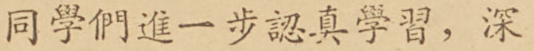同學們進一步認真學習，深
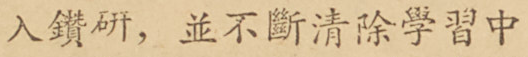入鑽研，並不斷清除學習中
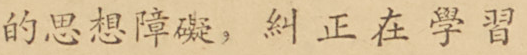的思想障礙，糾正在學習
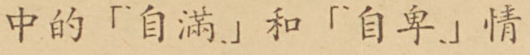中的「自滿」和「自卑」情
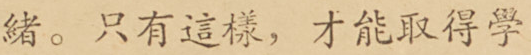緒。只有這樣，才能取得學
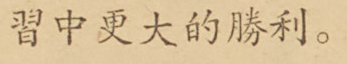習中更大的勝利。
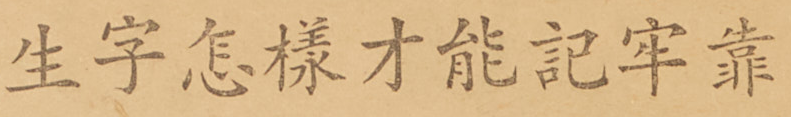生字怎樣才能記牢靠
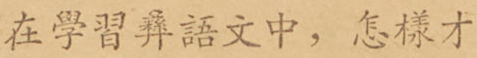在學習彝語文中，怎樣才
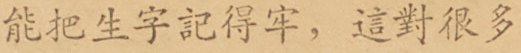能把生字記得牢，這對很多
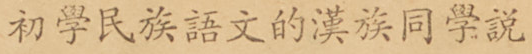初學民族語文的漢族同學說
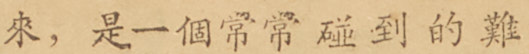來，是一個常常碰到的難
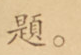題。
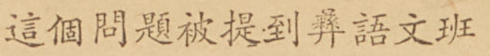這個問題被提到彝語文班
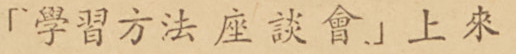「學習方法座談會」上來
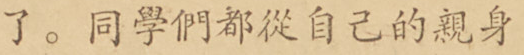了。同學們都從自己的親身
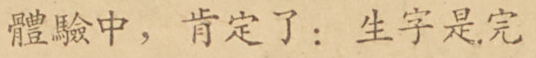體驗中，肯定了：生字是完
